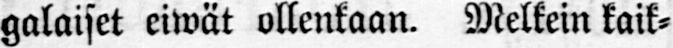galaiset eiwät ollenkaan. Melkein kaik-
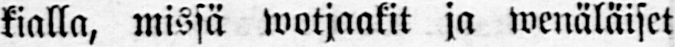kialla, missä wotjaakit ja wenäläiset
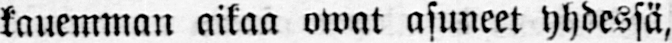kauemman aikaa owat asuneet yhdessä,
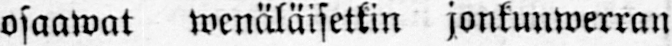osaawat wenäläisetkin jonkunwerran
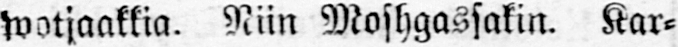wotjaakkia. Niin Moshgassakin. Kar-
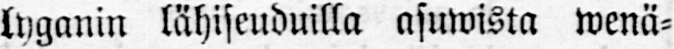lyganin lähiseuduilla asuwista wenä-
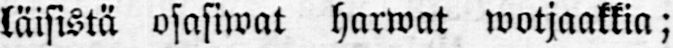läisistä osasiwat harwat wotjaakkia;
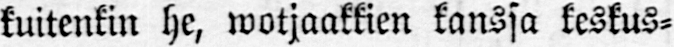kuitenkin he, wotjaakkien kanssa keskus-
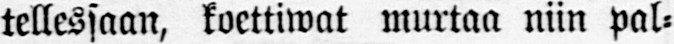tellessaan, koettiwat murtaa niin pal-
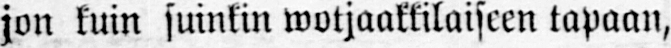jon kuin suinkin wotjaakkilaiseen tapaan,
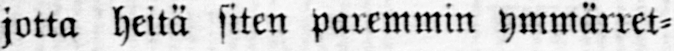jotta heitä siten paremmin ymmärret-
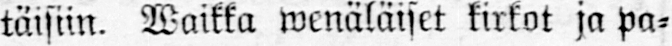täisiin. Waikka wenäläiset kirkot ja pa-
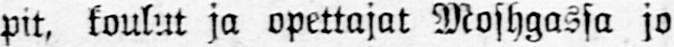pit, koulut ja opettajat Moshgassa jo
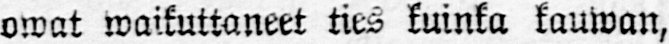owat waikuttaneet ties kuinka kauwan,
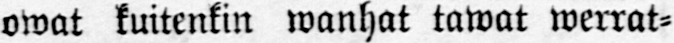omat kuitenkin wanhat tawat werrat-
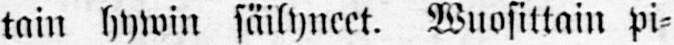tain hywin säilyneet. Wuosittain pi-
